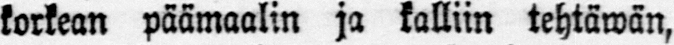korkean päämaalin ja kalliin tehtäwän,
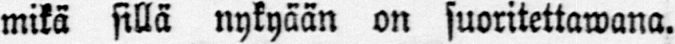mikä sillä nykyään on suoritettawana.
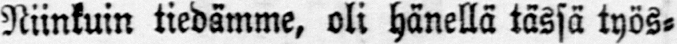Niinkuin tiedämme, oli hänellä tässä työs-
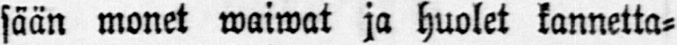sään monet waiwat ja huolet kannetta-
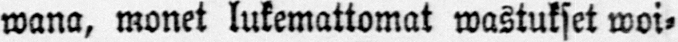wana, monet lukemattomat wastukset woi-
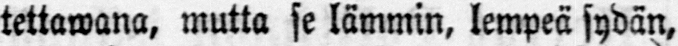tettawana, mutta se lämmin, lempeä sydän,
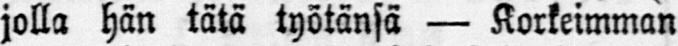jolla hän tätä työtänsä — Korkeimman
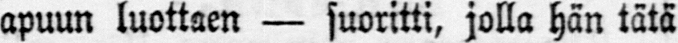apuun luottaen — suoritti, jolla hän tätä
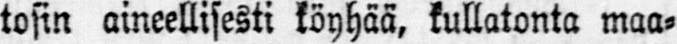tosin aineellisesti köyhää, kullatonta maa-
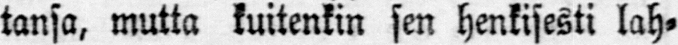tansa, mutta kuitenkin sen henkisesti lah-
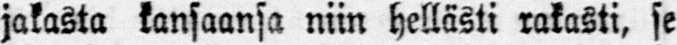jakasta kansaansa niin hellästi rakasti, se
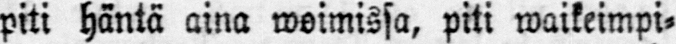piti häntä aina woimissa, piti waikeimpi-
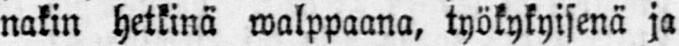nakin hetkinä walppaana, työkykyisenä ja
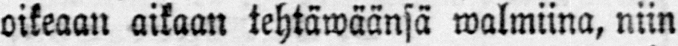oikeaan aikaan tehtäwäänsä walmiina, niin
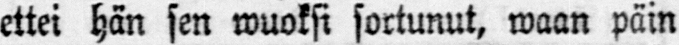ettei hän sen wuoksi sortunut, waan päin
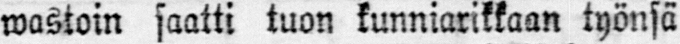wastoin saatti tuon kunniarikkaan työnsä
